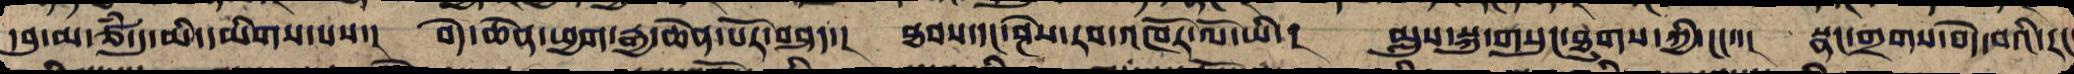དབུ་མ་ཙཾ་དུ་མི་དམིགས་པས་། བདེ་ཆེན་ཕྱག་རྒྱ་ཆེན་པོར་བཤད་། ཐབས་དང་ཤེས་རབ་འཁོར་ལོ་ཡི་། མླུས་སྐུ་གསུང་ཐུགས་ཀྱི་ངང་་། སྣང་གྲགས་བདེ་བའི་རང
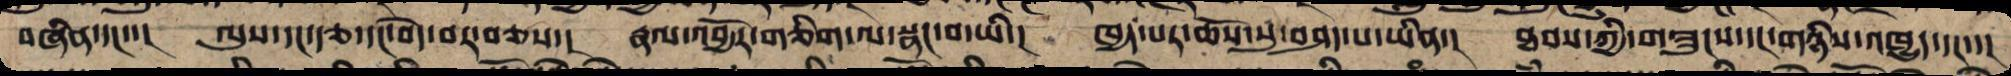བཞིན་དང་་། ལུས་དང་རྩ་དང་བདེ་བར་བཅས་། རྣལ་འབྱོར་གཅིག་ལ་སྣང་བ་ཡི་། ཁྱད་པར་ཆོས་སུ་བཤད་པ་ཡིན་། ཐབས་ཀྱིས་གཟུང་དང་གཉིས་འཁྱུད་དང་།
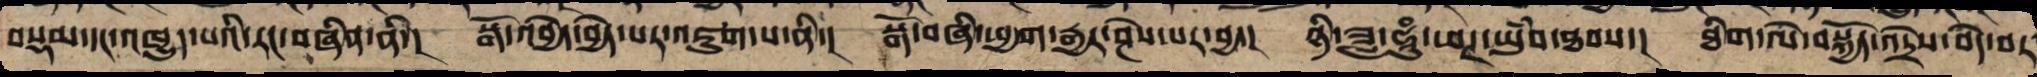བསྡམ་དང་འཁྱུད་པའི་རང་བཞིན་ནི་། སྒོ་འབྱེད་བདེ་བར་འཇུག་པ་ནི་། སྒོ་བཞི་ཕྱག་རྒྱར་ཤེས་པར་བྱ་། ཉི་ཟླ་ཧཱུཾ་ཕཊ་ཡུཾབ་ཐབས་། ཐིག་ལེ་བསྐྱོད་འདྲེས་བདེ་བར
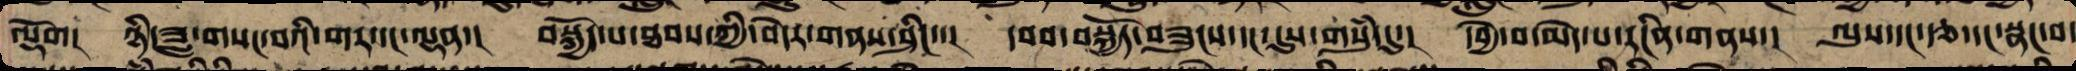ལྡོག། ཉི་ཟླ་གསལ་བའི་གར་དང་ལྡན་། བསྐྱོད་པ་ཐབས་ཀྱི་བདེར་གནས་ཤིང་་། དབབ་བསྐྱོད་གཟུང་དང་དུས་གསུཾ་དུ་། དབྱེ་བ་མེད་པར་རང་བཞིན་གནས་། ལུས་དང་རྩ་དང་སྣང་བ་
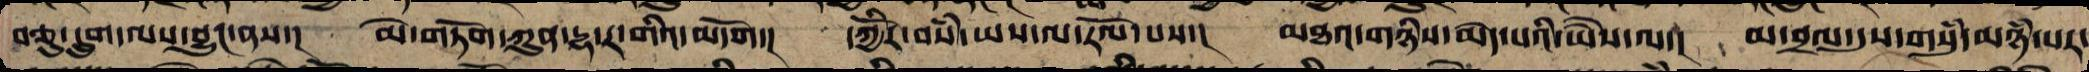བཅུ་དྲུག་ལས་བྱུང་ནས་། མེ་ཏོག་ཀུན་དྷ་ར་གའི་མདོག དཀྱོིར་བསཾ་ཡས་ལ་རོལ་པས་། མཐའ་གཉིས་མེད་པའི་ཡཻས་ལ་། མ་བྲལ་དུས་གསུཾ་མཉཾ་པར་
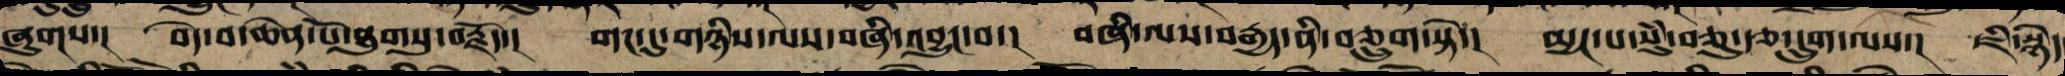ཞུགས་། བདེ་བ་ཆེན་པོ་ཐུགསུ་བརྗོད་། གང་དུ་གཉིས་ལས་བཞི་བྱུང་བས་། བཞི་ལས་བརྒྱད་ནི་བཅུ་དྲུག་སྟེ་། མྱང་བ་སུཾ་ཅུ་རྩ་དྲུག་ལས་། ཇི་སྙེད
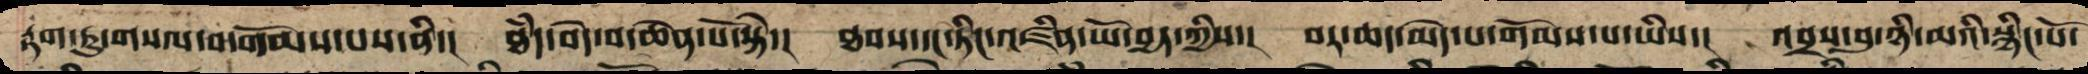རྟག་ཏུ་གསལ་བ་གོམས་པས་ནི་། ཐཾད་བདེ་བ་ཆེན་པོ་སྟེ་། ཐབས་དང་ཏིང་འཛིན་ཡོ་བྱད་ཀྱིས་། བར་ཆད་མེད་པར་གོམས་པ་ཡིས་། འབྲས་བུ་ཉི་མའི་སྙིང་པོ་
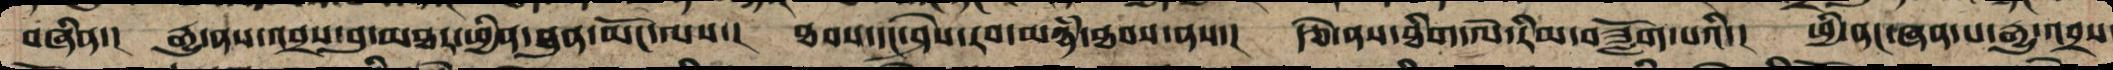བཞིན་། རྒྱུ་ནས་འབྲས་བུ་མཐར་ཕྱིན་ཐུན་མོང་ལས་། ཐབས་དང་ཤེས་རབ་མཉཾ་ཐོབ་ནས་། རྩེ་ནས་ཐིག་ལེ་རིམ་བཟློག་པའི་། ཕྱི་ནང་ཞན་པ་རྒྱུ་འབྲས
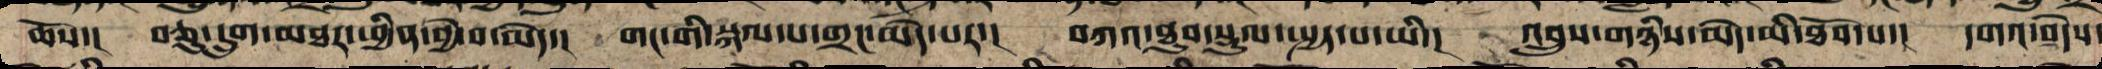ཆོས་། བཅུ་དྲུག་མཐར་ཕྱིན་བྱེ་བ་མེད་། གང་གིས་བསྐལ་པ་གྲངས་མེད་པར་། དཀའ་ཐུབ་སྡུལ་སྤྱད་པ་ཡིས་། འབྲུས་གཉིས་མེད་མི་ཐོབ་པ་། དགའ་བདེས་
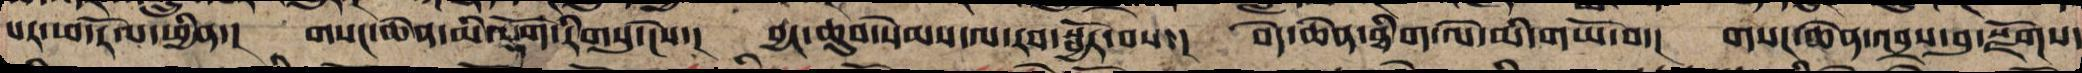པར་ཕ་རོལ་ཕྱིན་། གསང་ཆེན་མི་ལྡོག་རིགསུ་ངེས་། བྱང་ཆུབ་སེམས་ལ་རབ་སྦྱོར་བས་། བདེ་ཆེན་ཐིག་ལེ་མི་གཡོ་བ་། གསང་ཆེན་འབྲས་བུ་སྫོགས་
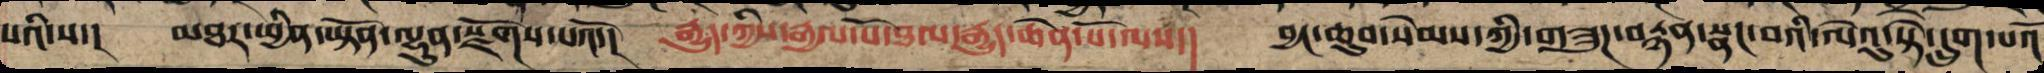པའི་ས་། མཐར་ཕྱིན་ཡྟོན་ལྷུན་སྫོགས་པའོ་། རྒྱུད་ཀྱི་རྒྱལ་པོ་ཐལ་རྒྱུད་ཆེན་པོ་ལས་། བྱང་ཆུབ་སེམས་ཀྱི་གཟུཌ་ཅན་སྣང་བའི་ལེའུ་སྟེ་དྲུག་པའོ།
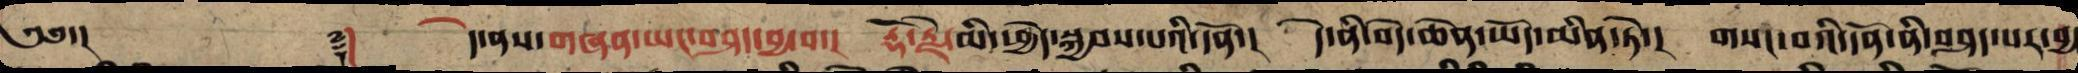༄༅་། ༈། །དེ་ནས་གཞན་ཡང་བཤད་བྱ་བ་། རྡོ་རྗེ་མི་ཕྱེད་སྐྱོབ་པའི་དོན་། དེ་ནི་བདེ་ཆེན་ཡོད་མིན་ཏེ་། གསང་བའི་དོན་ནི་བཤད་པར་བྱ
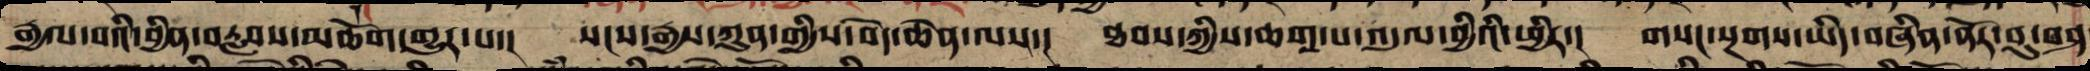རྒྱལ་བའི་བྱིན་རླབས་མཆོག་གྱུར་པ་། སངས་རྒྱས་ཀུན་གྱི་བདེ་ཆེན་ལས་། ཐབས་ཀྱིས་ཆགས་པ་གདུལ་བྱའི་ཕྱིར་། གསང་སྔགས་ཡིད་བཞིན་ནོར་བུ་བཤ
